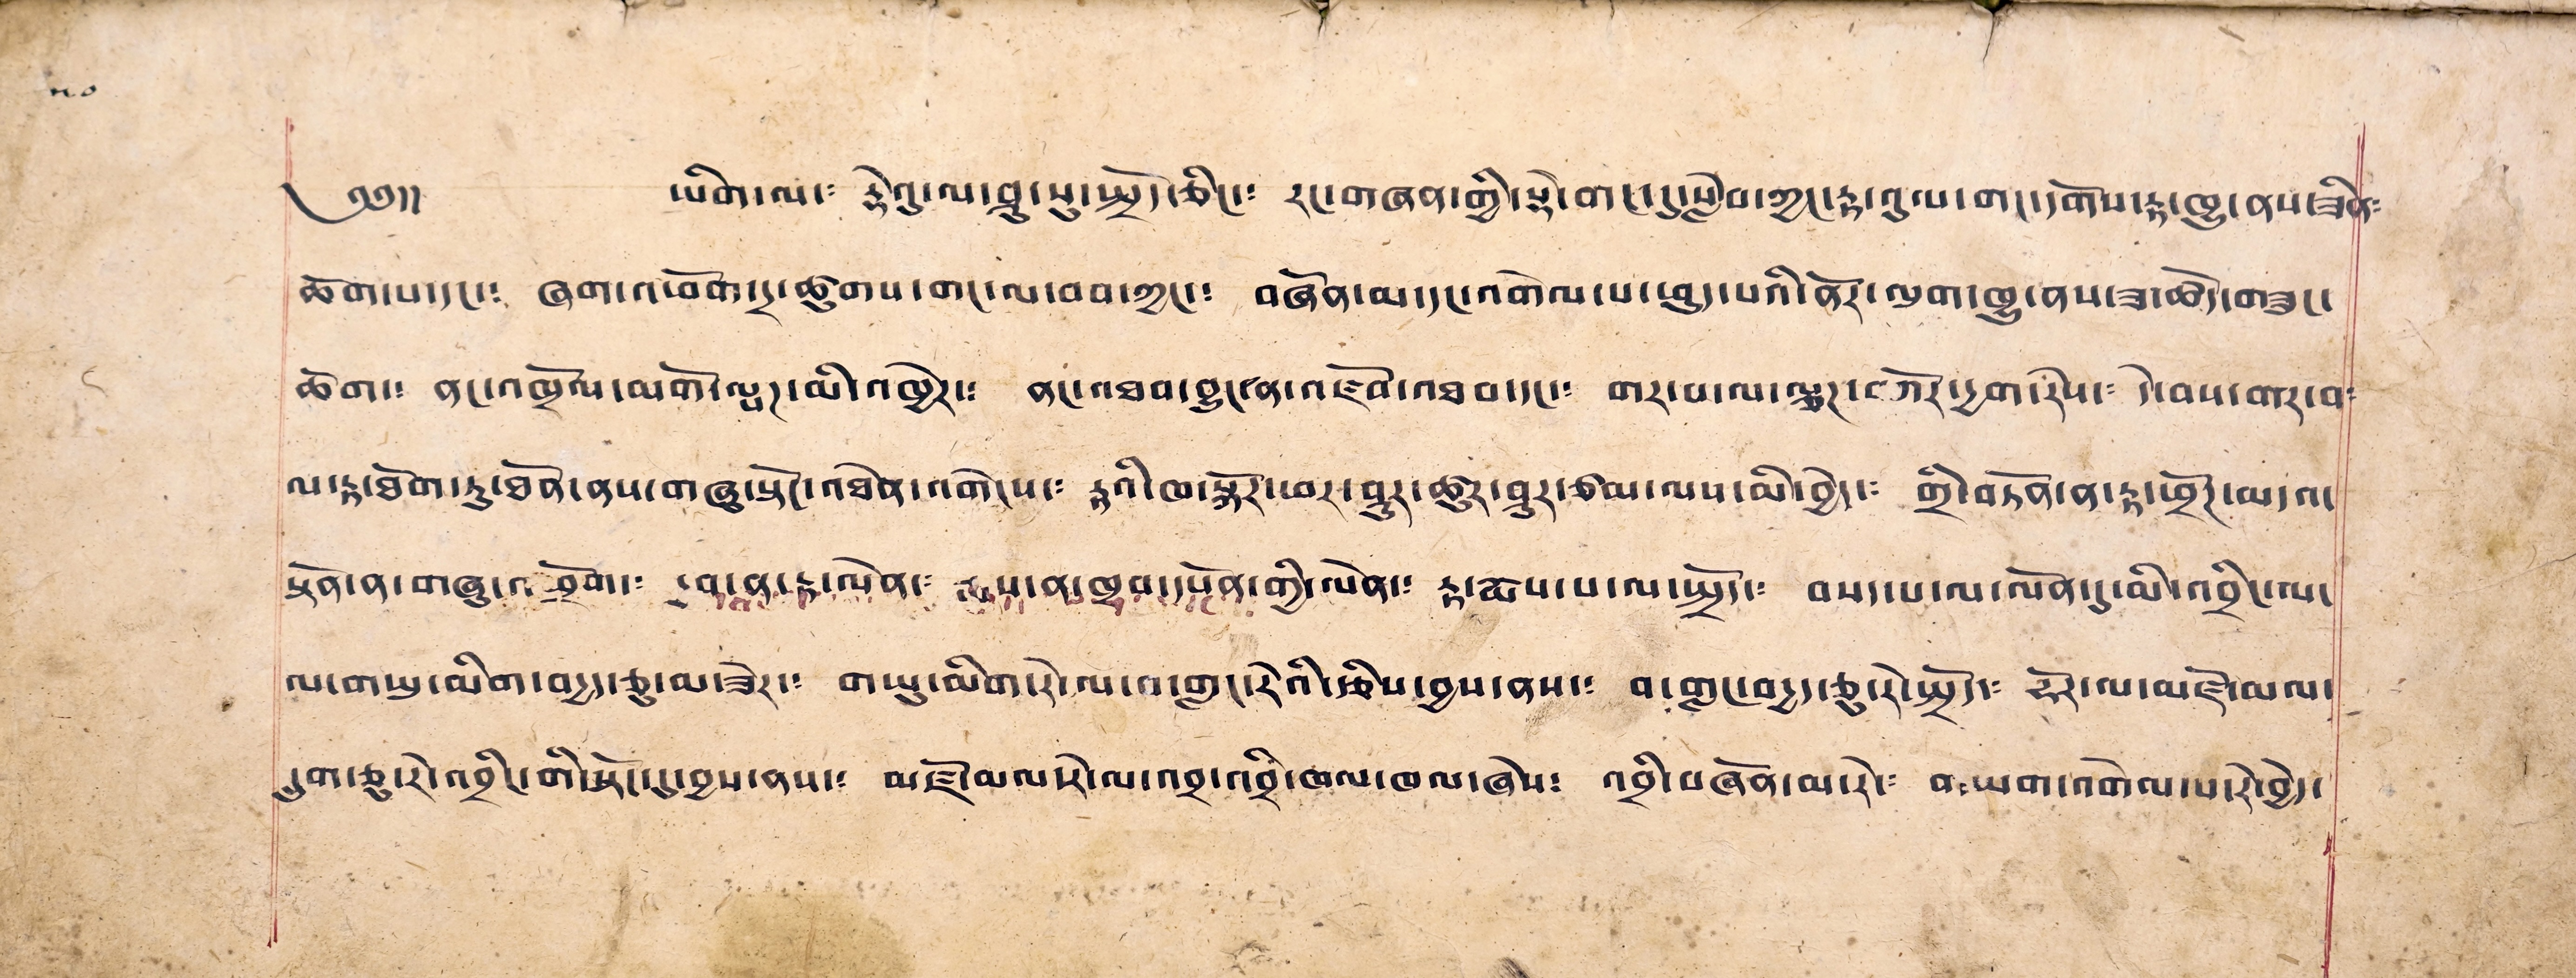༄༅།། ཡིག་ལ་༴ རྡེའུ་ལ་ཤུ་སུ་སྤྲོད་ཅིང་༴ རང་གཞན་གྱི་སྡེ་གང་དུ་སླེབ་ཀྱང་རྟ་འུལ་གང་དགོས་རྟ་ཁྱུ་ནས་ཟིན༴
ཆོག་པ་དང་༴ ཞག་འཕོག་དྲ་ཚུགས་གང་ལ་བབ་ཀྱང་༴ བཞོན་མ་དང་འགེལ་པ་ཕུད་པའི་ནོར་ལུག་ཁྱུ་ནས་ཟ་ཆོད་བཟུང་
ཆོག་༴ ནང་འཁྲོལ་མགོ་ལྤཊ་མི་འཁྱེར་༴ ནང་འཐབ་བྱུང་ན་འཛོབ་འཐབ་དང་༴ གར་པ་ལ་ལྕཊ་བཀོར་དྱག་རེས་༴ དེ་བས་གར་བ༴
ལ་རྟ་ཐོག་ཏུ་ཐོན་ནས་གཞུ་སྟོང་འཐེན་འགེངས་༴ རྟའི་ཁ་སྐོར་ཕར་ཤུར་ཚུར་ཤུར་ཙམ་ལས་མི་བྱེད་༴ གྲི་བཏོན་ན་རྟ་ཕྲོཊ་མདའ་
སྟོན་ན་གཞུ་འཕྲོག་༴ དྱབ་ན་རྟ་ལེན་༴ རྨས་ན་ཁྲབ་དཔོན་གྱི་ལེན་༴ རྟ་རྨས་པ་ལ་སྤྲོད་༴ བསད་པ་ལ་ལོན་དུ་མི་འབྲིང་ལ་
ལ་གཡུ་མིག་བདྱད་ཅུ་མ་ཟེར་༴ གཡུ་མིག་རེ་ལ་བ་གླང་རེའི་རྩིས་བྱས་ནས་༴ བ་གླང་བདྱད་ཅུ་རེ་སྤྲོད་༴ ཧོར་ལ་མཛོ་མལ་
དྲུག་ཅུ་རེ་འབྲིང་གི་སྟོང་དུ་བྱས་ནས་༴ མཛོ་མལ་རེ་ལ་འབྲ་འབྲི་ཆལ་ཁལ་ཞེས་༴ འབྲི་བཞོན་མ་རེ་༴ གཡག་འགེལ་པ་རེ་བྱེད་
